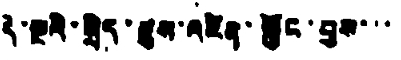དེ་སྔའི་སྲིད་ཇུས་འཛིན་སྐྱོང་བྱས་་་
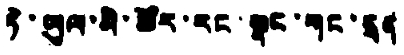ཏེ་ཡུལ་མི་ཚོར་རང་སྣང་གང་དྲན
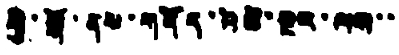གྱི་སྒོ་ནས་གནོད་འཚེ་སྔར་ལས་་
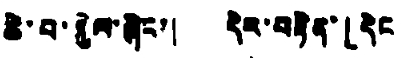ཆེ་བ་སྐྱེལ་ཞིང་། དེར་བརྟེན་「དེང
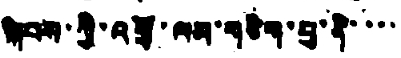སྐབས་ཀྱི་འགྲོ་ལམ་གཅིག་བུ་ནི་་་་
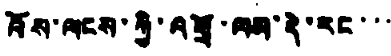འོས་ལངས་ཀྱི་འགྲོ་ལམ་དེ་རང་་་
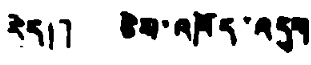རེད།」 ཅེས་འཁོད་འདུག
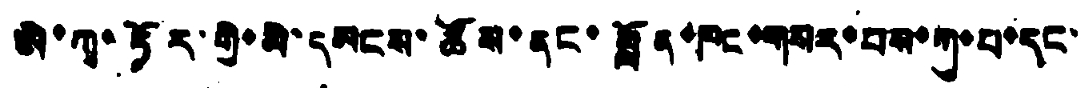ཨེ་ཀྭ་ཏོར་གྱི་མི་དམངས་ཚོས་ནང་བློན་ཁང་གསར་པས་ཀུ་པ་དང་
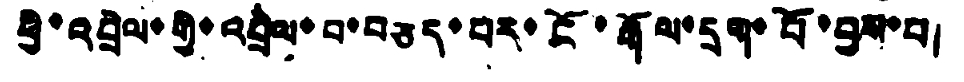ཕྱི་འབྲེལ་གྱི་འབྲེལ་བ་བཅད་པར་ངོ་རྒོལ་དྲག་པོ་བྱས་པ།
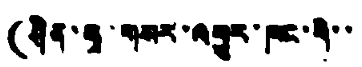(ཤིན་ཧྭ་གསར་འགྱུར་ཁང་གི་་
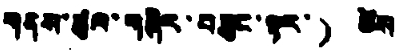གནས་ཚུལ་གཞིར་བཟུང་ལྟར་) ཚེས
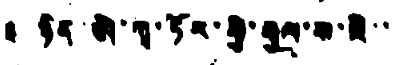༣ ཉིན་ཨེ་ཀྭ་ཏོར་གྱི་རྒྱལ་ས་ཇི་་
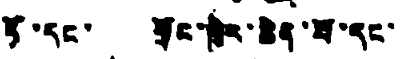ཏོ་དང་ གྲོང་ཁྱེར་ཆེན་པོ་དང་
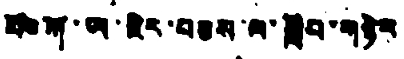པོ་ཀོ་ཡ་ཇེར་བཅས་ལ་སློབ་གཉེར
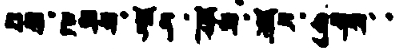པས་རྔམས་སྟོན་ཁྲོམ་སྐོར་ཤུགས་་
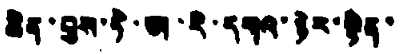ཆེན་བྱས་ཏེ་ཨ་རི་དགའ་ཉེར་སྟེན་
